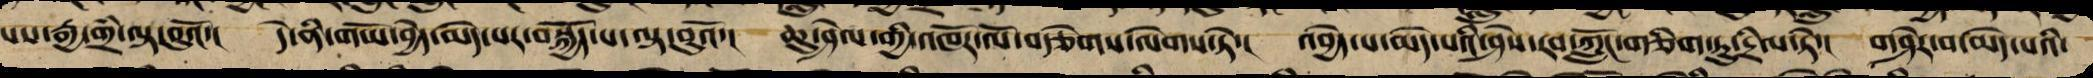པས་རྒྱ་གྲཾ་ལྟ་བུའོ་། དེ་ནི་གཡོ་བྱེད་མེད་པར་བསྐྱོད་པ་ལྟ་བུའོ་། ཆུ་ཤེལ་གྱི་འཁོར་ལོ་བརྩེགས་ལེགས་ཏེ་། འབྱེད་པ་མེད་པའི་ཤེས་རབ་ཀློང་གཅིག་དུ་དྲིལ་ཏེ་། གཤེར་བ་མེད་པའི་
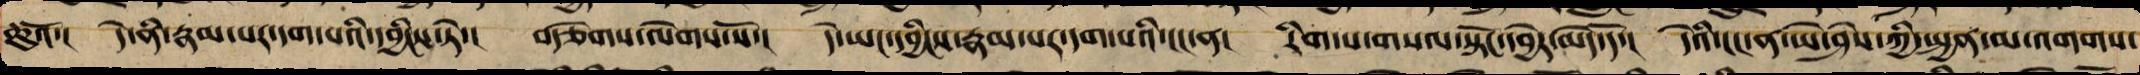ཆུའོ་། དེ་ནི་རྣམ་པར་དག་པའི་དབྱིངས་ཏེ་། བརྩེགས་ལེགས་སོ་། དེ་ཡང་དབྱིངས་རྣམ་པར་དག་པའི་ངང་ན། རིག་པ་གསལ་སྟོང་དབྱེར་མེད་དོ་། དེའི་ངང་ན་ཡེ་ཤེས་ཀྱི་སྤྱན་མ་འགགས་
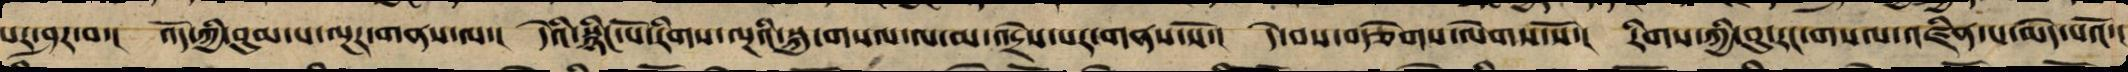པར་ཤར་བ་། འོད་ཀྱི་བུམ་པ་ལྔར་གནས་ལ་། དེའི་སྙིང་པོ་རིགས་ལྔའི་སྐུ་གསལ་ལ་མ་འདྲེས་པར་གནས་སོ་། དེ་བས་བརྩེགས་ལེགས་སོ་། རིགས་ཀྱི་བུ་རང་གསལ་འཛིན་པ་མེད་པའོ་།
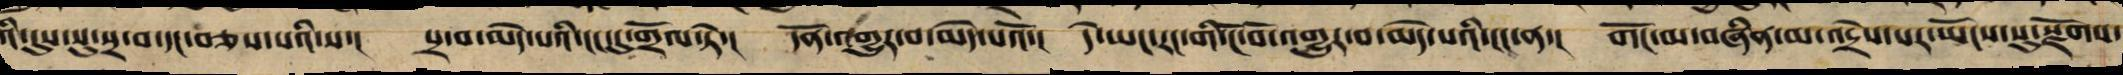འི་དུས་སུ་སྲ་བ་དང་བཅས་པའི་ས་། སྲ་བ་མེད་པའི་ངང་དུ་གྲོལ་ཏེ་། དོན་འགྱུར་བ་མེད་པའོ་། དེ་ཡང་རང་གི་ངོ་བོ་འགྱུར་བ་མེད་པའི་ངང་ན་། གོང་མ་བཞིན་མ་འདྲེས་པར་ཡོངས་སུ་སྫོགས་
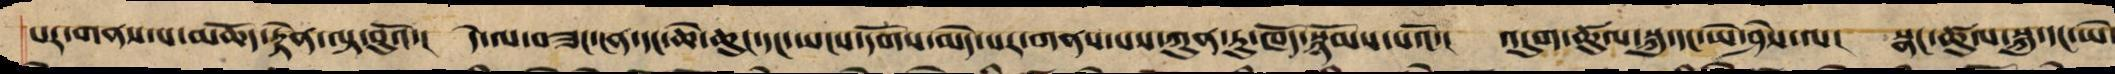པར་གནས་པ་མཆོད་རྟེན་ལྟ་བུའོ་། དེ་ལ་བཟང་ངན་དང་ཆེ་ཆུང་དང་ཡངས་དགོས་མེད་པར་གནས་པས་ཀུན་ཏུ་ཁོད་སྙོམས་པའོ་། འདུག་ཚུལ་སྐུ་དང་ཡེ་ཤེས་ལ། སྣང་ཚུལ་སྐུ་དང་ཡེ་
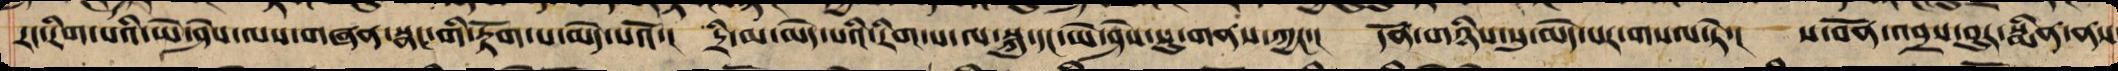རང་རིག་པའི་ཡེ་ཤེས་ལས་གཞན་སྣང་གི་རྟོག་པ་མེད་པའོ་། དྲི་མ་མེད་པའི་རིག་པ་ལ་སྐུ་དང་ཡེ་ཤེས་སུ་གནས་ཀྱང་། དོན་གཉིས་སུ་མེད་པར་གསལ་ཏེ་། ས་བོན་འབྲས་བུར་སྨིན་ནས་
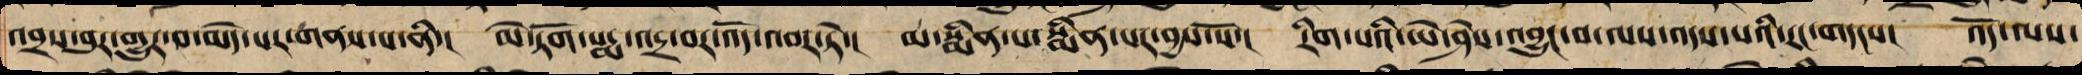འབྲས་བུར་འགྱུར་བ་མེད་པར་གནས་པ་ནི་། མེ་ཏོག་པདྨ་འདྲ་བར་འོད་འབར་ཏེ་། མ་སྨིན་པ་སྨིན་པར་བྱས་སོ་། རིག་པའི་ཡེ་ཤེས་འབྱུང་བ་ལས་འདས་པའི་རང་གདངས། འོད་ལས་
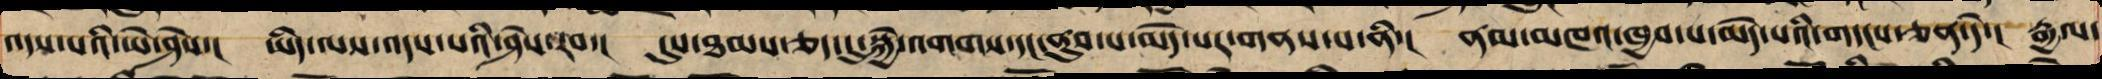འདས་པའི་ཡེ་ཤེས་། ཡིད་ལས་འདས་པའི་ཤེས་རབ་། དུས་ཐམས་ཅད་དུ་སྐྱེ་འགགས་དང་ནུབ་པ་མེད་པར་གནས་པ་ནི་། ནམ་མཁའ་ཁྱབ་པ་མེད་པའི་གདངས་ཅན་དེ་། རྒྱལ་
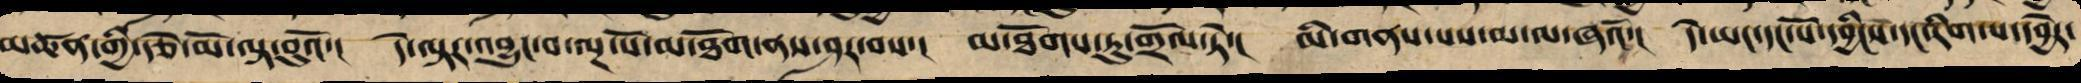མཚན་གྱི་རྩེ་མོ་ལྟ་བུའོ་། དེ་ལྟར་འབྱུང་བ་ལྔ་པོ་མ་ཐོག་ནས་ཤར་བས་། མ་ཐོགས་ཏུ་གྲོལ་ཏེ་། མི་གནས་པས་མ་ལ་ཞའོ་། དེ་ཡང་དང་པོ་དབྱིངས་དང་རིག་པ་དབྱེར་
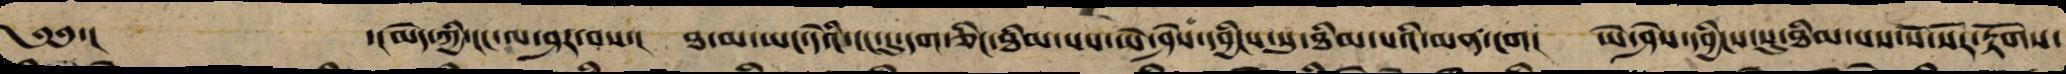༄༅་། ་།མེད་ཀྱི་ངང་ལ་ཤར་བས་། ཐ་མ་ཡང་དེའི་ངང་དུ་དག་ཅིང་ཐིམ་པས་ཡེ་ཤེས་དབྱིངས་སུ་ཐིམ་པའི་མན་ངག། ཡེ་ཤེས་དབྱིངས་སུ་ཐིམ་པས་སོ་སོར་རྟོགས་
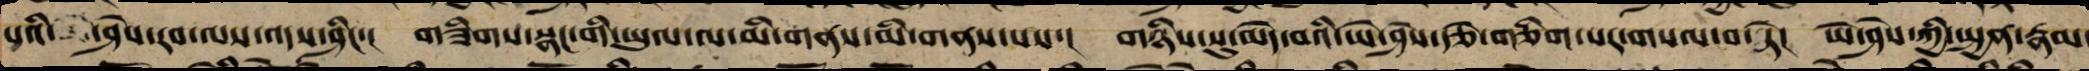པའི་ ་ཤེས་རབ་ལས་འདས་ཤིང་། གཟིགས་སྣང་གི་ཡུལ་ལ་མི་གནས་མི་གནས་པས་། གཉིས་སུ་མེད་བའི་ཡེ་ཤེས་རྩེ་གཅིག་པར་གསལ་བ་སྟེ། ཡེ་ཤེས་ཀྱི་སྤྱན་རྣམ་
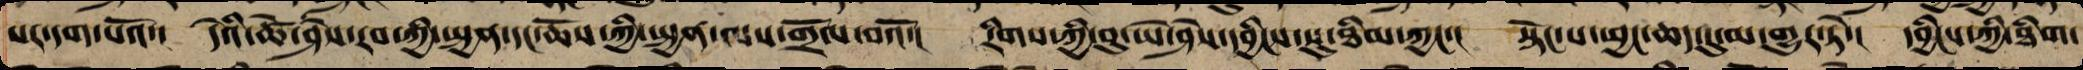པར་དག་པའོ་། དེའི་ཚེ་ཤེས་རབ་ཀྱི་སྤྱན་དང་ཆོས་ཀྱི་སྤྱན་ལས་གྲོལ་བའོ་། རིགས་ཀྱི་བུ་ཡེ་ཤེས་ཀྱི་དབྱིངས་སུ་ཐིམ་ཀྱང་། སྟོང་པ་ཕྱང་ཆད་དུ་མ་གྱུར་ཏེ་། དབྱིངས་ཀྱི་ཐིག་
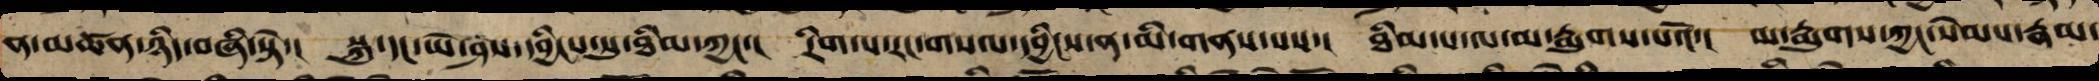ན་མཚན་ཉིད་བཞི་སྟེ་། སྐུ་དང་ཡེ་ཤེས་དབྱིངས་སུ་ཐིམ་ཀྱང་། རིག་པ་རང་གསལ་དབྱིངས་ན་མི་གནས་པས་། ཐིམ་པ་ལ་མ་རྨུགས་པའོ་། མ་རྨུགས་ཀྱང་སེམས་རྣམ་
